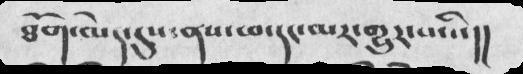ཐོག་མེད་དུས་ནས་ཕ་དང་མར་གྱུར་པའི་།།
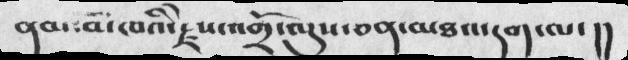ནམ་མཁའི་རྗེས་འགྲོ་ལུས་ཅན་མཐའ་དག་ལ་།།
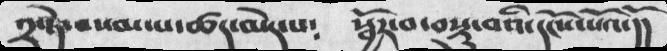༢་ཏེ་བསམ་པ་ཚད་མེད་པ༴     སྦྱོར་བ་བསྡུ་བའི་དངོས་པོའོ་།།
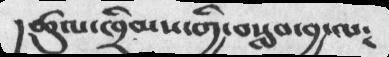།ཚུལ་ཁྲིམས་གྱི་བསླབ་བྱ་ལ༴
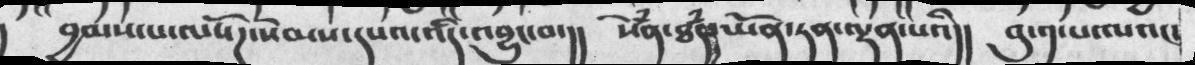བྱམས་པ་ལསོཌ་སེམས་དཔའ་འདི་འབྱུང་བ་།། སེཾན་ཐཾད་ཡོན་ཏན་ལྡན་པའི།། བུ་༡་པ་ལའང་
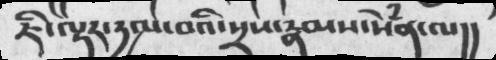ཇི་ལྟར་དྱལ་བའི་སྲས་རྣམས་སེྃན་ལ།།
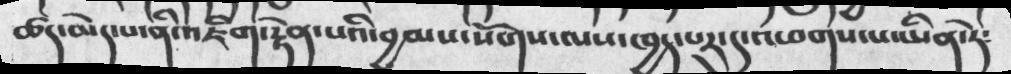ཚད་མེད་པ་ནི་འཇིག་རྟེན་པའི་བྱམས་སོགས་ལས་ཁྱད་པར་དུ་འཕགས་པ་ཡིན་ཏེ༴
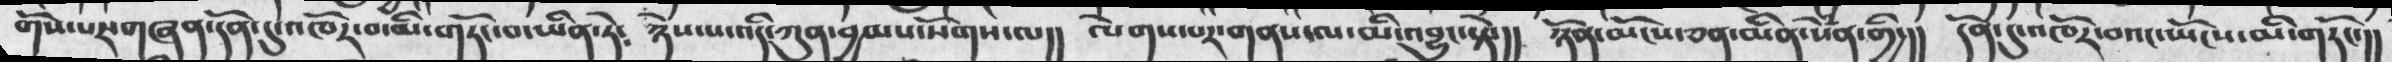གོས་པར་གཞན་དོན་དུ་འཁོར་བ་མི་གཏོང་བ་པ་ཡིན་ཏེ༴   ཉེས་པ་འདི་ཀུན་བྱམས་སོགས་ལ།།   ལོགས་པར་གནས་ལ་མི་འབྱུང་སྟེ་།།   ཉོན་མོངས་ཅན་མིན་སེྃན་གྱི་།།   དོན་དུ་འཁོར་བའང་ཡོངས་མི་གཏོང་།།
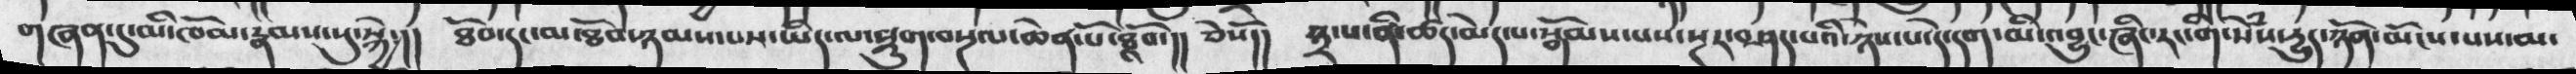གཞན་དུ་མི་ཁོམ་རྣམས་སུ་སྐྱེ་།།   ཐོབ་དང་མ་ཐོབ་ཉམས་པས་ཡིད་ལ་སྡུག་བསྔལ་ཆེན་པོ་ཐོབ་།།   ཅེསོ།།  ༣་པ་ནི་ཚད་མེད་པ་སྒོམས་པས་སྔར་བཤད་པའི་ཉེས་པ་དེ་དག་མི་འབྱུང་ཞིང་རང་གི་སེྃས་རྱུད་ཉོན་མོངས་པས་མ་
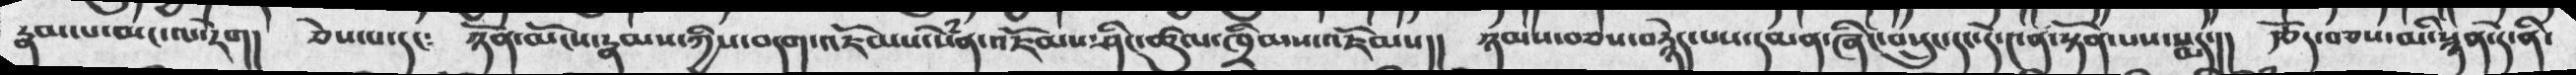རྣམ་པ་མང་ལ་རེག།།  ཅེས་པ་དང༴  ཉོན་མོངས་རྣམས་ཀྱིས་བདག་འཇོམས་སེྃན་འཇོམས་ཤིང་ཚུལ་ཁྲིམས་འཇོམས།།   ཉམས་བཅས་་རྙེད་པས་དམན་ཞིང་བསྲུང་དང་དེ་༤ན་སྟོན་པས་སྨད།།   རྩོད་བཅས་མི་སྙན་དེ་ནི་
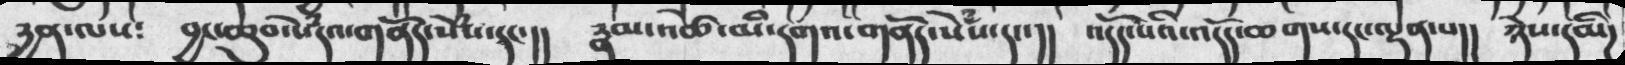རྱན་ལས༴   བྱང་ཆུབ་སེྃདའ་གནོད་སེྃས་དང་།།   རྣམ་འཚེ་མི་དགའ་གནོད་སེྃས་དང་།།  འདོད་པའི་འདོད་ཆགས་དང་ལྡན་པ།།  ཉེས་དམིཌ
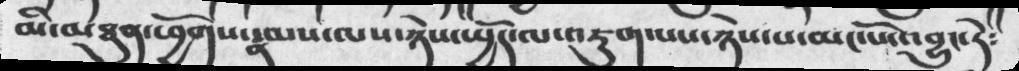མི་མཐུན་ཕྱོགས་རྣམས་ལས་ཉེས་ཡྱོད་ལ་འཇུག་པས་ཉེས་པ་མང་པོ་འབྱུང་ཏེ༴
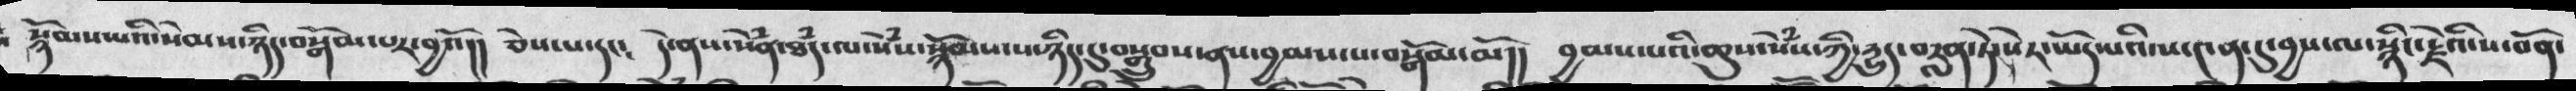སྙོམས་པའི་སེམས་ཉིད་བསྒོམ་པར་བྱའོ།། ཅེས་པ་དང༴ དེ་ནས་སེཾན་ཐཾད་ལ་སེཾས་སྙོམས་པ་ཉིད་དུ་བསྒྲུབས་ནས་བྱམས་པ་བསྒོམ་མོ།། བྱམས་པའི་ཆུས་སེཾས་ཀྱི་རྱུད་བརླན་ཏེ་སེར་ཡོད་པའི་ས་༤ན་དུ་བྱས་ལ་སྙིང་རྗེའི་ས་བོན་
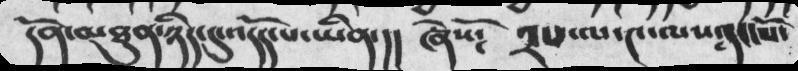དོན་མཐུན་ཉིད་དུ་འདོད་པ་ཡིན་།།  ཞེསོ༴    ༢པ་ལ་༤་ལས་དང་པོ་
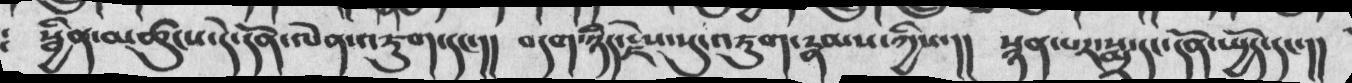སྦྱིན་མཚུངས་དེ་དོན་ལེན་འཇུག་དང་།། བདག་ཉིད་རྗེས་སུ་འཇུག་རྣམས་ཀྱིས་།། སྙན་པར་སྨྲ་དང་དོན་སྤྱོད་དང་།།
